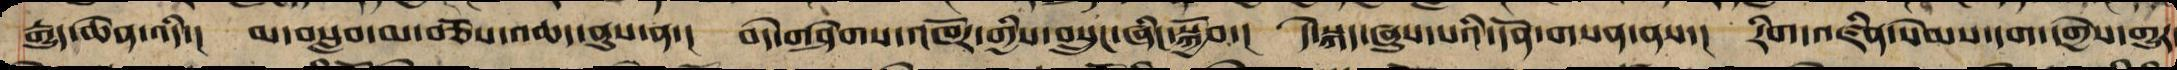རྒྱུད་ཆེན་འདི་། མ་བསླབ་མ་བཅོས་འཆད་ནུས་ན་། བདེ་གཤེགས་འཁོར་གྱིས་བསྲུང་ཞིང་སྐྱོབ་། དེ་སྐད་ཞུས་པའི་དོན་གསན་ནས་། རིག་འཛིན་སེམས་དག་དགྱེས་གྱུར
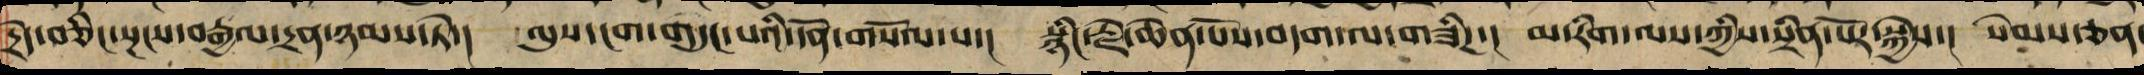དྲེད་ཅིང་སྔངས་བརྒྱལ་དྲན་ཉམས་ཏེ་། ལུས་ངག་གདུང་བའི་དོན་གསོལ་པ་། སྙིང་རྗེ་ཆེན་པོས་བདག་ལ་གཟིཌ་། མ་རིག་ལས་ཀྱིས་སྲིན་པོར་སྐྱེས་། སེམས་ཅན་
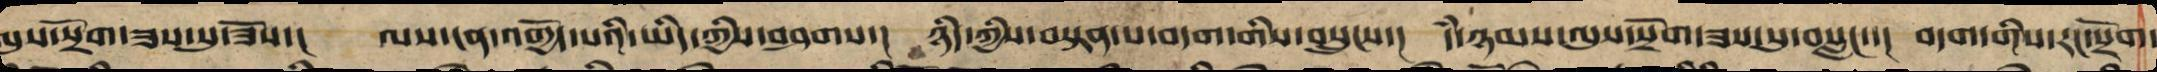ལུས་སྲོག་ཟས་སུ་ཟོས་། ལས་ངན་འགྱོད་པའི་ཡིད་ཀྱིས་བཤགས་། ཉིད་ཀྱི་བསྟན་པ་བདག་གིས་བསྲུང་་། དཾ་ཉམས་ལུས་སྲོག་ཟས་སུ་བསླང་་། བདག་གི་རང་སྲོག་
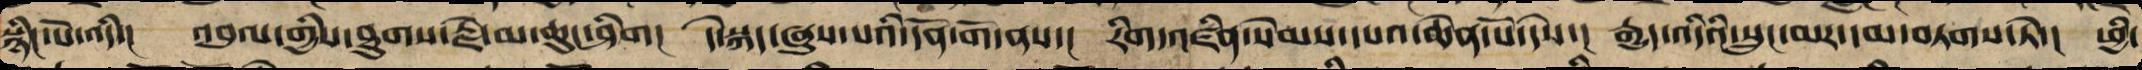སྙིང་པོ་འདི་། འབུལ་གྱིས་ཐུགས་རྗེ་མ་ཆུང་ཞིག། དེ་སྐད་ཞུས་པའི་དོན་གོ་ནས་། རིག་འཛིན་སེམས་དཔའ་ཆེན་པོ་དེས་། རྒྱུད་འདིའི་སྲུང་མར་དམ་བཏགས་ཏེ་། ཕྱི་
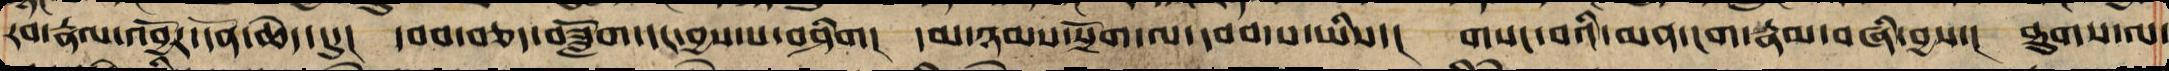རབས་རྣལ་འབྱོར་དོན་ཆེད་དུ་། དབབ་བཅད་བཟློག་དང་བྱས་པ་བཤིག། དམ་ཉམས་སྲོག་ལ་དབབ་པ་ཡི་། གསང་བའི་མན་ངག་རྣམ་བཞི་བྱས་། ཐུགས་ལ་
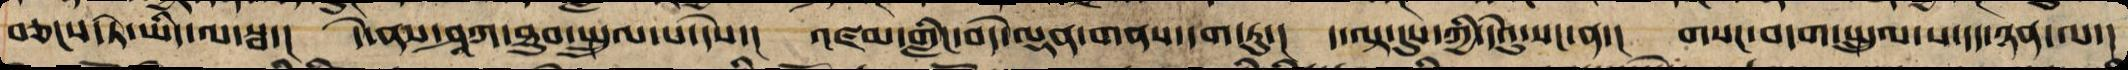བཅངས་ཏེ་ཡིད་ལ་སྦ་། དེ་ནས་ཤཱཀ་ཐུབ་སྤྲུལ་པ་དེས་། འཛམ་གླིང་བདེ་ལྡན་གནས་དག་ཏུ་། ད་ལྟ་དུས་ཀྱི་དེང་སང་ན་། གསང་བདག་སྤྲུལ་པ་དད་ཉན་ལ་།
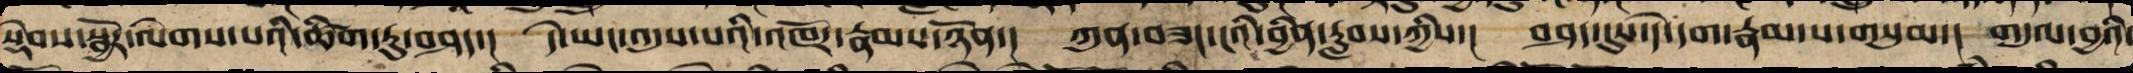སྡེབས་སྦྱོར་ལེགས་པའི་ཚིག་ཏུ་བཤད་། དེ་ཡང་འདུས་པའི་འཁོར་རྣམས་ཉོན་། ཀུན་བཟང་ངའི་བྱིན་རླབས་ཀྱིས་། བཤད་དུས་དེ་དག་རྣམ་པ་གསུམ་། གདུལ་བྱའི་
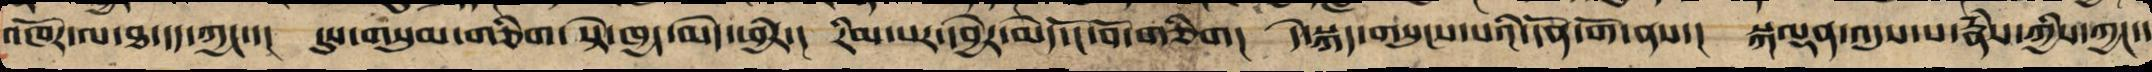འཁོར་ལ་ཐ་དད་ཀྱང་་། དུས་གསུམ་གཅིག་སྟེ་ཁྱད་མེད་ཕྱིར་། རིམ་པར་དབྱེར་མེད་ངོ་བོ་གཅིག། དེ་སྐད་གསུངས་པའི་དོན་གོ་ནས་། སྐལྡན་འདུས་པ་རྣཾས་ཀྱིས་ཀྱང་་
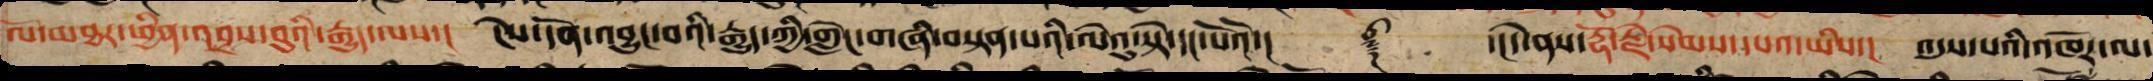ལོ་མཐར་ཕྱིན་འབྲས་བུའི་རྒྱུད་ལས་། ངེས་དོན་འབྱུང་བའི་རྒྱུད་ཀྱི་གླེང་གཞི་བསྟན་པའི་ལེའུ་སྟེ་དང་པོའོ་།། ༈ ་།།དེ་ནས་རྡོ་རྗེ་སེམས་དཔའ་ཡིས་། འདུས་པའི་འཁོར་ལ་
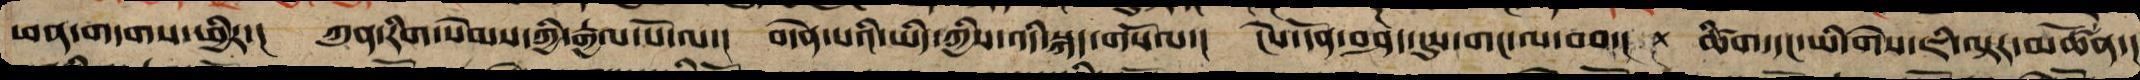ཕན་གདགས་ཕྱིར་། ཀུན་རིག་སེམས་ཀྱི་རྒྱལ་པོ་ལ་། བདེན་པའི་ཡིད་ཀྱིས་འདི་སྐད་གསོལ་། ངེས་དོན་བཤད་དུས་གང་ལ་བབ་། ཚིག་དང་ཡི་གེས་ཇི་ལྟར་མཚོན་།
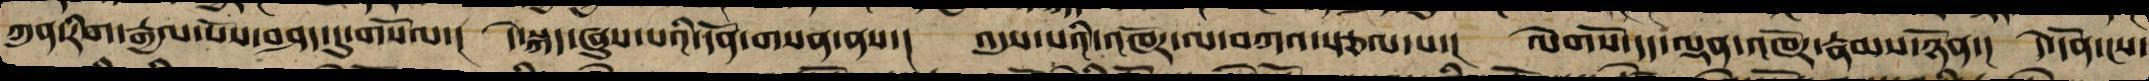ཀུན་རིག་རྒྱལ་པོས་བཤད་དུ་གསོལ་། དེ་སྐད་ཞུས་པའི་དོན་གསན་ནས་། འདུས་པའི་འཁོར་ལ་བཀའ་སྩལ་པ་། ལེགསོ་དད་ལྡན་འཁོར་རྣམས་ཉོན་། དེ་དོན་ངས་
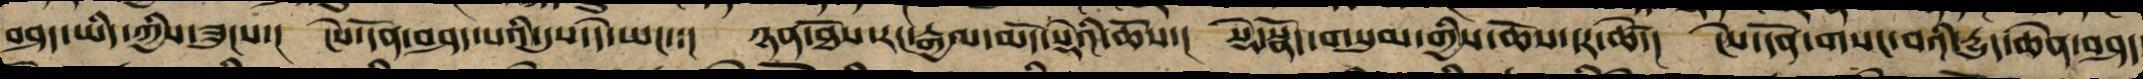བཤད་ཡིད་ཀྱིས་ཟུང་། ངེས་དོན་བཤད་པའི་དུས་དེ་ཡང་་། ཉན་ཐོས་རང་རྒྱལ་མདོ་སྡེའི་ཆོས་། སྡེ་སྣོད་གསུམ་གྱི་ཆོས་དར་ཚེ་། ངེས་དོན་གསང་བའི་རྒྱུད་ཆེན་བཤད
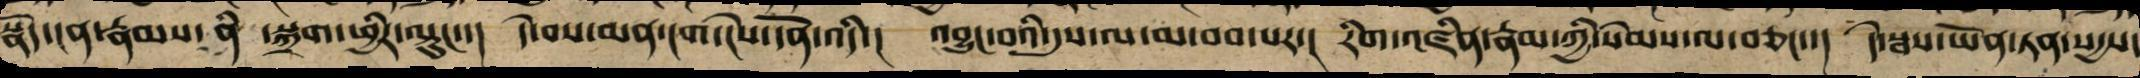སྣོད་ངན་རྣམས་ནི་སྐྲག་ཕྱིར་ལྟུང་་། དེ་བས་མན་ངག་ངེས་དོན་འདི་། འབྱུང་བའི་དུས་ལ་མ་བབ་པར་། རིག་འཛིན་རྣམ་ཀྱིས་སེམས་ལ་བཅང་་། དེ་སྦས་ཡོན་ཏན་སདྱས་
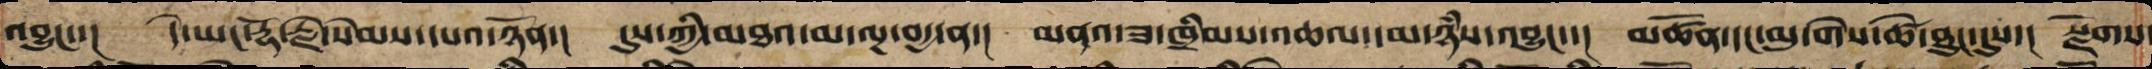འབྱུང་་། དེ་ཡང་རྡོ་རྗེ་སེམས་དཔའ་ཉོན་། དུས་ཀྱི་ཐ་མ་ལྔ་བདྱ་ན་། མནའ་ཟ་ཁྲིམས་འཆལ་དམ་ཉཾས་འབྱུང་་། མཚོན་དང་མུ་གེས་ཚེ་ཐུང་དུས་། སྫོགས་
